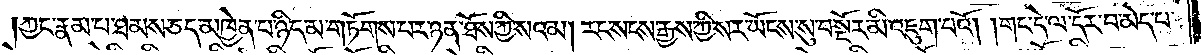ཀྱང་རྣམ་པ་ཐམས་ཅད་མཁྱེན་པ་ཉིད་མ་གཏོགས་པར་ཉན་ཐོས་ཀྱི་སའམ། རང་སངས་རྒྱས་ཀྱི་སར་ཡོངས་སུ་བསྔོར་མི་འཇུག་པའོ། །གང་དེ་ལ་དོར་བ་མེད་པ་
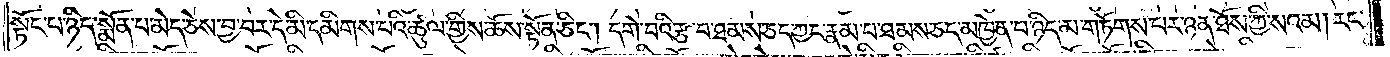སྟོང་པ་ཉིད་སྨོན་པ་མེད་ཅེས་བྱ་བར་དེ་མི་དམིགས་པའི་ཚུལ་གྱིས་ཆོས་སྟོན་ཅིང༌། དགེ་བའི་རྩ་བ་ཐམས་ཅད་ཀྱང་རྣམ་པ་ཐམས་ཅད་མཁྱེན་པ་ཉིད་མ་གཏོགས་པར་ཉན་ཐོས་ཀྱི་སའམ། རང་
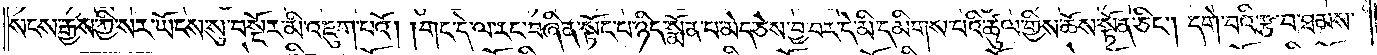སངས་རྒྱས་ཀྱི་སར་ཡོངས་སུ་བསྔོར་མི་འཇུག་པའོ། །གང་དེ་ལ་རང་བཞིན་སྟོང་པ་ཉིད་སྨོན་པ་མེད་ཅེས་བྱ་བར་དེ་མི་དམིགས་པའི་ཚུལ་གྱིས་ཆོས་སྟོན་ཅིང༌། དགེ་བའི་རྩ་བ་ཐམས་
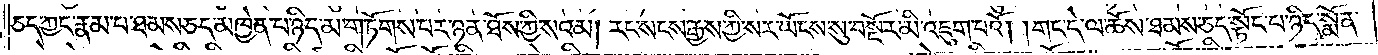ཅད་ཀྱང་རྣམ་པ་ཐམས་ཅད་མཁྱེན་པ་ཉིད་མ་གཏོགས་པར་ཉན་ཐོས་ཀྱི་སའམ། རང་སངས་རྒྱས་ཀྱི་སར་ཡོངས་སུ་བསྔོར་མི་འཇུག་པའོ། །གང་དེ་ལ་ཆོས་ཐམས་ཅད་སྟོང་པ་ཉིད་སྨོན་
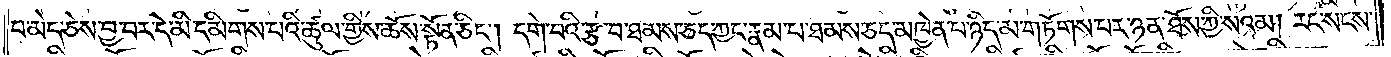པ་མེད་ཅེས་བྱ་བར་དེ་མི་དམིགས་པའི་ཚུལ་གྱིས་ཆོས་སྟོན་ཅིང༌། དགེ་བའི་རྩ་བ་ཐམས་ཅད་ཀྱང་རྣམ་པ་ཐམས་ཅད་མཁྱེན་པ་ཉིད་མ་གཏོགས་པར་ཉན་ཐོས་ཀྱི་སའམ། རང་སངས་
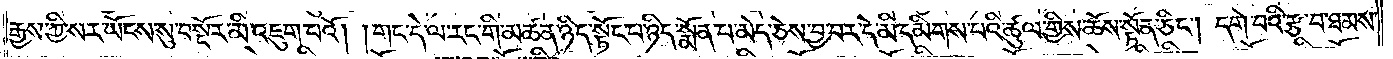རྒྱས་ཀྱི་སར་ཡོངས་སུ་བསྔོར་མི་འཇུག་པའོ། །གང་དེ་ལ་རང་གི་མཚན་ཉིད་སྟོང་པ་ཉིད་སྨོན་པ་མེད་ཅེས་བྱ་བར་དེ་མི་དམིགས་པའི་ཚུལ་གྱིས་ཆོས་སྟོན་ཅིང༌། དགེ་བའི་རྩ་བ་ཐམས་
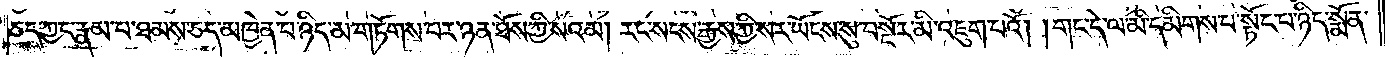ཅད་ཀྱང་རྣམ་པ་ཐམས་ཅད་མཁྱེན་པ་ཉིད་མ་གཏོགས་པར་ཉན་ཐོས་ཀྱི་སའམ། རང་སངས་རྒྱས་ཀྱི་སར་ཡོངས་སུ་བསྔོར་མི་འཇུག་པའོ། །གང་དེ་ལ་མི་དམིགས་པ་སྟོང་པ་ཉིད་སྨོན་
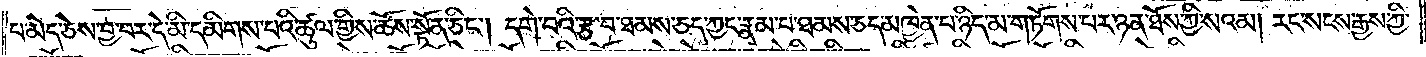བ་མེད་ཅེས་བྱ་བར་དེ་མི་དམིགས་པའི་ཚུལ་གྱིས་ཆོས་སྟོན་ཅིང༌། དགེ་བའི་རྩ་བ་ཐམས་ཅད་ཀྱང་རྣམ་པ་ཐམས་ཅད་མཁྱེན་པ་ཉིད་མ་གཏོགས་པར་ཉན་ཐོས་ཀྱི་སའམ། རང་སངས་རྒྱས་ཀྱི་
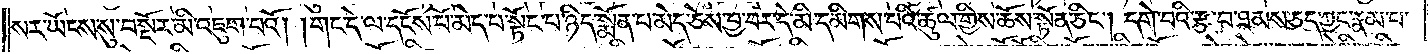སར་ཡོངས་སུ་བསྔོར་མི་འཇུག་པའོ། །གང་དེ་ལ་དངོས་པོ་མེད་པ་སྟོང་པ་ཉིད་སྨོན་པ་མེད་ཅེས་བྱ་བར་དེ་མི་དམིགས་པའི་ཚུལ་གྱིས་ཆོས་སྟོན་ཅིང༌། དགེ་བའི་རྩ་བ་ཐམས་ཅད་ཀྱང་རྣམ་པ་
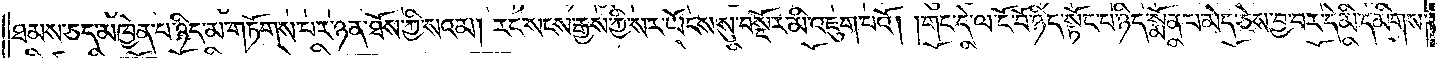ཐམས་ཅད་མཁྱེན་པ་ཉིད་མ་གཏོགས་པར་ཉན་ཐོས་ཀྱི་སའམ། རང་སངས་རྒྱས་ཀྱི་སར་ཡོངས་སུ་བསྔོར་མི་འཇུག་པའོ། །གང་དེ་ལ་ངོ་བོ་ཉིད་སྟོང་པ་ཉིད་སྨོན་པ་མེད་ཅེས་བྱ་བར་དེ་མི་དམིགས་
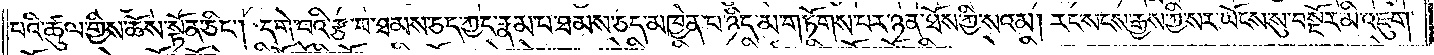པའི་ཚུལ་གྱིས་ཆོས་སྟོན་ཅིང༌། དགེ་བའི་རྩ་བ་ཐམས་ཅད་ཀྱང་རྣམ་པ་ཐམས་ཅད་མཁྱེན་པ་ཉིད་མ་གཏོགས་པར་ཉན་ཐོས་ཀྱི་སའམ། རང་སངས་རྒྱས་ཀྱི་སར་ཡོངས་སུ་བསྔོར་མི་འཇུག་
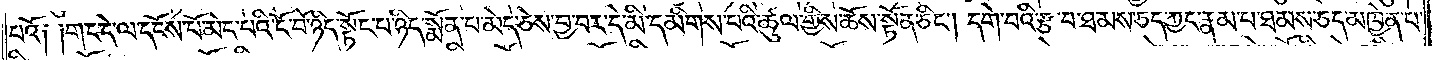པའོ༑ ༑གང་དེ་ལ་དངོས་པོ་མེད་པའི་ངོ་བོ་ཉིད་སྟོང་པ་ཉིད་སྨོན་པ་མེད་ཅེས་བྱ་བར་དེ་མི་དམིགས་པའི་ཚུལ་གྱིས་ཆོས་སྟོན་ཅིང༌། དགེ་བའི་རྩ་བ་ཐམས་ཅད་ཀྱང་རྣམ་པ་ཐམས་ཅད་མཁྱེན་པ་
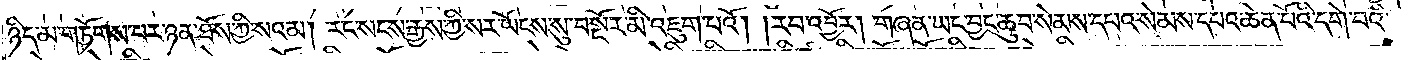ཉིད་མ་གཏོགས་པར་ཉན་ཐོས་ཀྱི་སའམ། རང་སངས་རྒྱས་ཀྱི་སར་ཡོངས་སུ་བསྔོར་མི་འཇུག་པའོ། །རབ་འབྱོར། གཞན་ཡང་བྱང་ཆུབ་སེམས་དཔའ་སེམས་དཔའ་ཆེན་པོའི་དགེ་བའི་
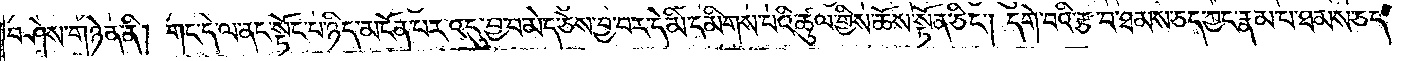བཤེས་གཉེན་ནི། གང་དེ་ལ་ནང་སྟོང་པ་ཉིད་མངོན་པར་འདུ་བྱ་བ་མེད་ཅེས་བྱ་བར་དེ་མི་དམིགས་པའི་ཚུལ་གྱིས་ཆོས་སྟོན་ཅིང༌། དགེ་བའི་རྩ་བ་ཐམས་ཅད་ཀྱང་རྣམ་པ་ཐམས་ཅད་
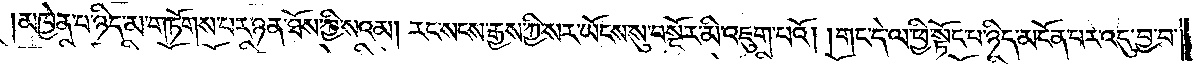མཁྱེན་པ་ཉིད་མ་གཏོགས་པར་ཉན་ཐོས་ཀྱི་སའམ། རང་སངས་རྒྱས་ཀྱི་སར་ཡོངས་སུ་བསྔོར་མི་འཇུག་པའོ། །གང་དེ་ལ་ཕྱི་སྟོང་པ་ཉིད་མངོན་པར་འདུ་བྱ་བ་
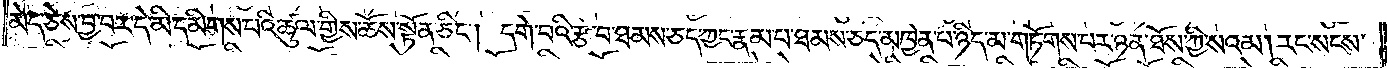མེད་ཅེས་བྱ་བར་དེ་མི་དམིགས་པའི་ཚུལ་གྱིས་ཆོས་སྟོན་ཅིང༌། དགེ་བའི་རྩ་བ་ཐམས་ཅད་ཀྱང་རྣམ་པ་ཐམས་ཅད་མཁྱེན་པ་ཉིད་མ་གཏོགས་པར་ཉན་ཐོས་ཀྱི་སའམ། རང་སངས་
